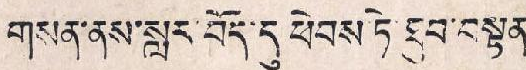གསན་ནས་སླར་བོད་དུ་ཕེབས ཏེ་ཐུབ་བསྟན་
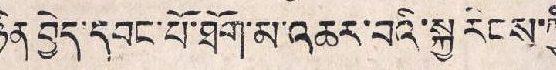ཉིན་བྱེད་དབང་པོ་ཐོག་མ་འཆར་བའི་སྐྱ རིངས་ཀྱི་
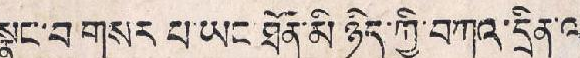སྣང་བ་གསར་ པ་ཡང ཐོན་མི ཉིད་ཀྱི་བཀའ་དྲིན་ལ་
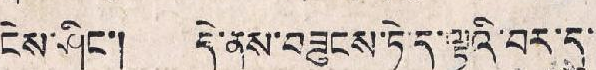ངེས་ཤིང་། དེ་ནས་་བཟུངས་ཏེ་ད་ལྟའི་བར་དུ་
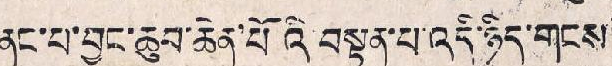ནང་པ་བྱང་ཆུབ་ཆེན་པོའི་བསྟན་པ་འདི་ཉིད་གངས་
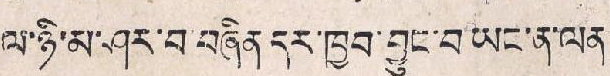ལ་ཉི་མ་ཤར་བ་བཞིན་དར་ཁྱབ་བྱུང་བ་ཡང་ན་ལན་
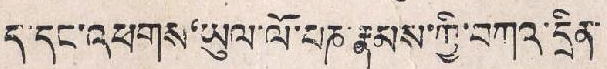ད་དང་འཕགས'ཡུལ་ལོ་པཎ་རྣམས་ཀྱི་བཀའ་དྲིན་
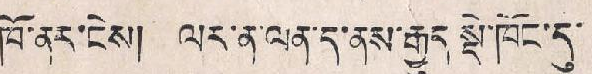ཁོ་ནར་ངེས། ལར་ན་ལན་ད་ནས་རྒྱུད་སྡེ་ཁོང་དུ་
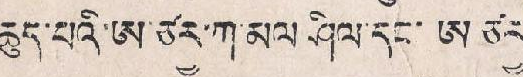ཆུད་པའི་ཨ་ཙརྱ་ཀ་མལ ཤིལ་དང་ཨ ཙརྱ་
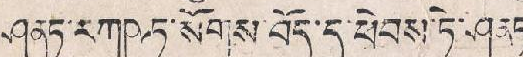ཤནཏ་རཀཥཏ་སོགས་བོད་དུ་ཕེབས་ཏེ་ཤནཏ་
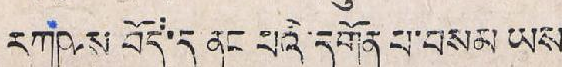རཀཥས་བོད་དུ་ནང པའི་དགོན་པ་བསམ ཡས་
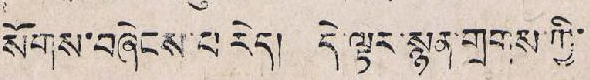སོགས་བཞེངས་པ་རེད། དེ་ལྟར་སྙན་གྲགས་ཀྱི་
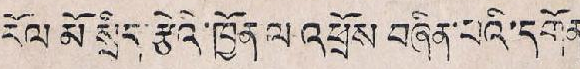རོལ་མོ་སྲིད་རྩེའི་ཁྱོན་ལ་འཕྲོས བཞིན་པའི་དགོན་
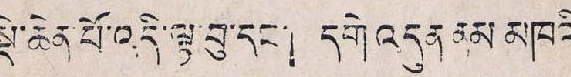སྡེ་ཆེན་པོ་འདི་ལྟ་བུ་དང་། དགེ་འདུན་ནམ་མཁའི་
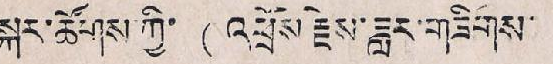སྐར་ཚོགས་ཀྱི་ (འཕྲོས་རྗེས་ཟླར་གཟིགས་)
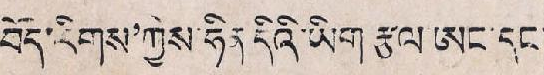བོད་རིགས'ཀྱིས་ཧིན དིའི་ཡིག རྩལ ཨང་དང་
